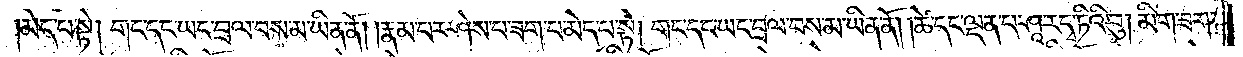མེད་པ་སྟེ༑ གང་དང་ཡང་བྲལ་བས་མ་ཡིན་ནོ། །རྣམ་པར་ཤེས་པ་ཟག་པ་མེད་པ་སྟེ། གང་དང་ཡང་བྲལ་བས་མ་ཡིན་ནོ། །ཚེ་དང་ལྡན་པ་ཤཱ་ར་དྭ་ཏིའི་བུ། མིག་ཟག་
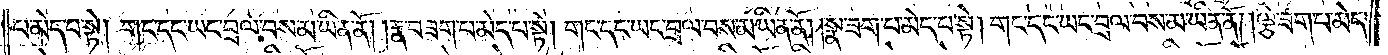པ་མེད་པ་སྟེ། གང་དང་ཡང་བྲལ་བས་མ་ཡིན་ནོ། །རྣ་བ་ཟག་པ་མེད་པ་སྟེ། གང་དང་ཡང་བྲལ་བས་མ་ཡིན་ནོ། །སྣ་ཟག་པ་མེད་པ་སྟེ། གང་དང་ཡང་བྲལ་བས་མ་ཡིན་ནོ། །ལྕེ་ཟག་པ་མེད་
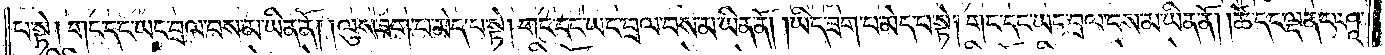པ་སྟེ༑ གང་དང་ཡང་བྲལ་བས་མ་ཡིན་ནོ། །ལུས་ཟག་པ་མེད་པ་སྟེ། གང་དང་ཡང་བྲལ་བས་མ་ཡིན་ནོ། །ཡིད་ཟག་པ་མེད་པ་སྟེ། གང་དང་ཡང་བྲལ་བས་མ་ཡིན་ནོ། །ཚེ་དང་ལྡན་པ་ཤཱ་
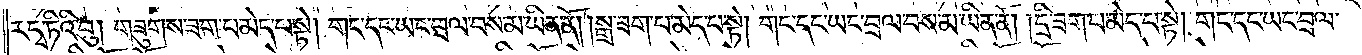ར་དྭ་ཏིའི་བུ། གཟུགས་ཟག་པ་མེད་པ་སྟེ། གང་དང་ཡང་བྲལ་བས་མ་ཡིན་ནོ། །སྒྲ་ཟག་པ་མེད་པ་སྟེ། གང་དང་ཡང་བྲལ་བས་མ་ཡིན་ནོ། །དྲི་ཟག་པ་མེད་པ་སྟེ། གང་དང་ཡང་བྲལ་
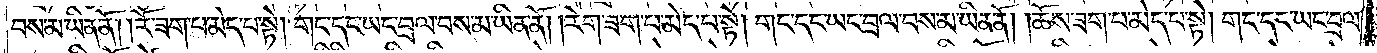བས་མ་ཡིན་ནོ། །རོ་ཟག་པ་མེད་པ་སྟེ། གང་དང་ཡང་བྲལ་བས་མ་ཡིན་ནོ། །རེག་ཟག་པ་མེད་པ་སྟེ། གང་དང་ཡང་བྲལ་བས་མ་ཡིན་ནོ། །ཆོས་ཟག་པ་མེད་པ་སྟེ། གང་དང་ཡང་བྲལ་
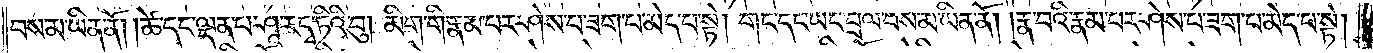བས་མ་ཡིན་ནོ། །ཚེ་དང་ལྡན་པ་ཤཱ་ར་དྭ་ཏིའི་བུ། མིག་གི་རྣམ་པར་ཤེས་པ་ཟག་པ་མེད་པ་སྟེ། གང་དང་ཡང་བྲལ་བས་མ་ཡིན་ནོ། །རྣ་བའི་རྣམ་པར་ཤེས་པ་ཟག་པ་མེད་པ་སྟེ།
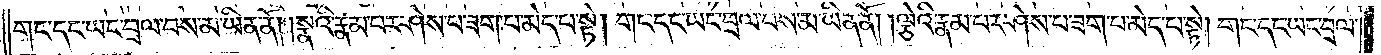གང་དང་ཡང་བྲལ་བས་མ་ཡིན་ནོ། །སྣའི་རྣམ་པར་ཤེས་པ་ཟག་པ་མེད་པ་སྟེ། གང་དང་ཡང་བྲལ་བས་མ་ཡིན་ནོ། །ལྕེའི་རྣམ་པར་ཤེས་པ་ཟག་པ་མེད་པ་སྟེ། གང་དང་ཡང་བྲལ་
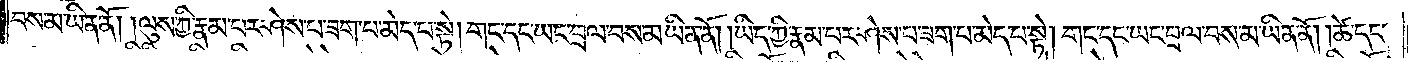བས་མ་ཡིན་ནོ། །ལུས་ཀྱི་རྣམ་པར་ཤེས་པ་ཟག་པ་མེད་པ་སྟེ། གང་དང་ཡང་བྲལ་བས་མ་ཡིན་ནོ། །ཡིད་ཀྱི་རྣམ་པར་ཤེས་པ་ཟག་པ་མེད་པ་སྟེ། གང་དང་ཡང་བྲལ་བས་མ་ཡིན་ནོ། །ཚེ་དང་
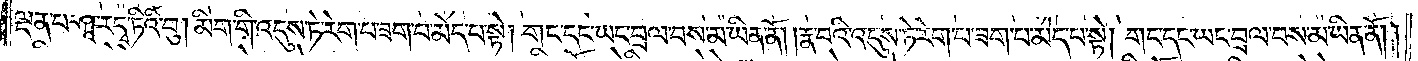ལྡན་པ་ཤཱ་ར་དྭ་ཏིའི་བུ། མིག་གི་འདུས་ཏེ་རེག་པ་ཟག་པ་མེད་པ་སྟེ། གང་དང་ཡང་བྲལ་བས་མ་ཡིན་ནོ། །རྣ་བའི་འདུས་ཏེ་རེག་པ་ཟག་པ་མེད་པ་སྟེ། གང་དང་ཡང་བྲལ་བས་མ་ཡིན་ནོ། །
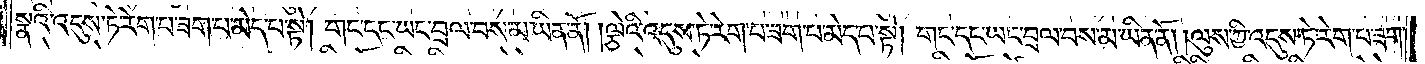སྣའི་འདུས་ཏེ་རེག་པ་ཟག་པ་མེད་པ་སྟེ། གང་དང་ཡང་བྲལ་བས་མ་ཡིན་ནོ། །ལྕེའི་འདུས་ཏེ་རེག་པ་ཟག་པ་མེད་པ་སྟེ། གང་དང་ཡང་བྲལ་བས་མ་ཡིན་ནོ། །ལུས་ཀྱི་འདུས་ཏེ་རེག་པ་ཟག་
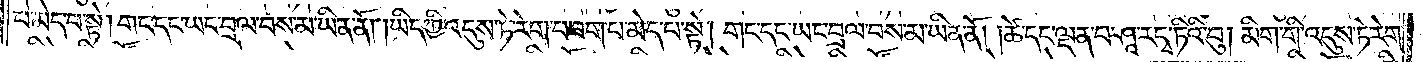པ་མེད་པ་སྟེ། གང་དང་ཡང་བྲལ་བས་མ་ཡིན་ནོ། །ཡིད་ཀྱི་འདུས་ཏེ་རེག་པ་ཟག་པ་མེད་པ་སྟེ། གང་དང་ཡང་བྲལ་བས་མ་ཡིན་ནོ། །ཚེ་དང་ལྡན་པ་ཤཱ་ར་དྭ་ཏིའི་བུ། མིག་གི་འདུས་ཏེ་རེག་
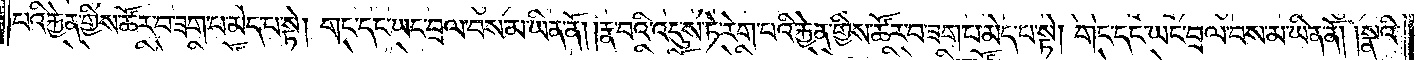པའི་རྐྱེན་གྱིས་ཚོར་བ་ཟག་པ་མེད་པ་སྟེ། གང་དང་ཡང་བྲལ་བས་མ་ཡིན་ནོ། །རྣ་བའི་འདུས་ཏེ་རེག་པའི་རྐྱེན་གྱིས་ཚོར་བ་ཟག་པ་མེད་པ་སྟེ། གང་དང་ཡང་བྲལ་བས་མ་ཡིན་ནོ། །སྣའི་
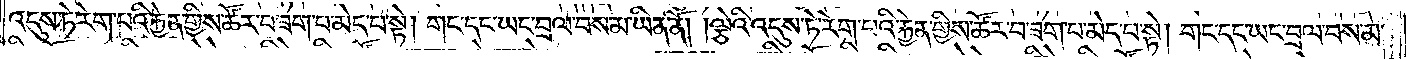འདུས་ཏེ་རེག་པའི་རྐྱེན་གྱིས་ཚོར་བ་ཟག་པ་མེད་པ་སྟེ། གང་དང་ཡང་བྲལ་བས་མ་ཡིན་ནོ། །ལྕེའི་འདུས་ཏེ་རེག་པའི་རྐྱེན་གྱིས་ཚོར་བ་ཟག་པ་མེད་པ་སྟེ། གང་དང་ཡང་བྲལ་བས་མ་
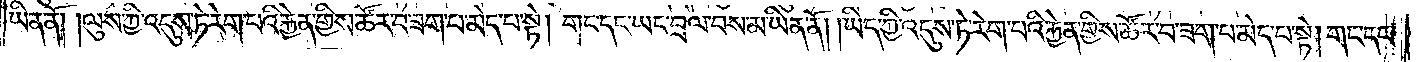ཡིན་ནོ། །ལུས་ཀྱི་འདུས་ཏེ་རེག་པའི་རྐྱེན་གྱིས་ཚོར་བ་ཟག་པ་མེད་པ་སྟེ། གང་དང་ཡང་བྲལ་བས་མ་ཡིན་ནོ། །ཡིད་ཀྱི་འདུས་ཏེ་རེག་པའི་རྐྱེན་གྱིས་ཚོར་བ་ཟག་པ་མེད་པ་སྟེ། གང་དང་
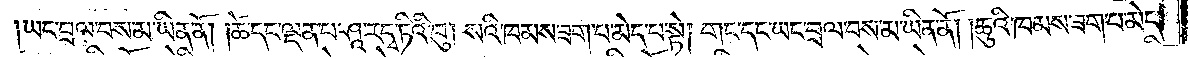ཡང་བྲལ་བས་མ་ཡིན་ནོ། །ཚེ་དང་ལྡན་པ་ཤཱ་ར་དྭ་ཏིའི་བུ། སའི་ཁམས་ཟག་པ་མེད་པ་སྟེ། གང་དང་ཡང་བྲལ་བས་མ་ཡིན་ནོ། །ཆུའི་ཁམས་ཟག་པ་མེད་
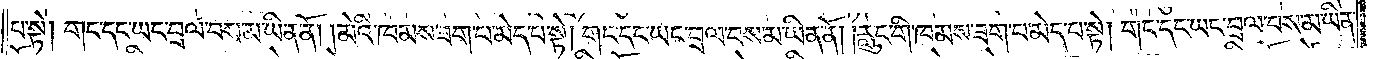པ་སྟེ། གང་དང་ཡང་བྲལ་བས་མ་ཡིན་ནོ། །མེའི་ཁམས་ཟག་པ་མེད་པ་སྟེ། གང་དང་ཡང་བྲལ་བས་མ་ཡིན་ནོ། །རླུང་གི་ཁམས་ཟག་པ་མེད་པ་སྟེ། གང་དང་ཡང་བྲལ་བས་མ་ཡིན་
